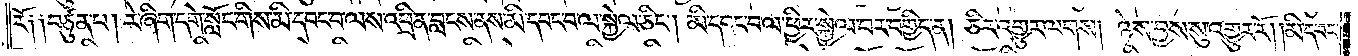རོ༑ ༑བཙུན་པ། རེ་ཞིག་དགེ་སློང་གིས་མི་དབང་བ་ལས་འཕྲིན་བླངས་ནས་མི་དབང་བ་ལ་སྐྱེལ་ཅིང༌། མི་དབང་བ་ལ་ཕྱིར་སྐྱེལ་བར་བགྱིད་ན། ཅིར་འགྱུར་ལགས། ཉེས་བྱས་སུ་འགྱུར་རོ། །མི་དབང་
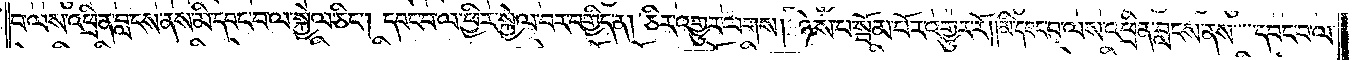བ་ལས་འཕྲིན་བླངས་ནས་མི་དབང་བ་ལ་སྐྱེལ་ཅིང༌། དབང་བ་ལ་ཕྱིར་སྐྱེལ་བར་བགྱིད་ན། ཅིར་འགྱུར་ལགས། ཉེས་པ་སྦོམ་པོར་འགྱུར་རོ། །མི་དབང་བ་ལས་འཕྲིན་བླངས་ནས་དབང་བ་ལ་
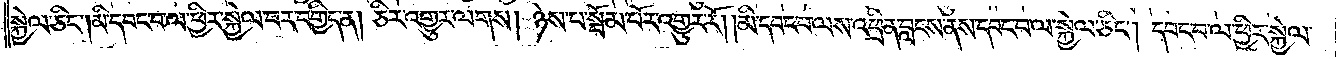སྐྱེལ་ཅིང༌། མི་དབང་བ་ལ་ཕྱིར་སྐྱེལ་བར་བགྱིད་ན། ཅིར་འགྱུར་ལགས། ཉེས་པ་སྦོམ་པོར་འགྱུར་རོ། །མི་དབང་བ་ལས་འཕྲིན་བླངས་ནས་དབང་བ་ལ་སྐྱེལ་ཅིང༌། དབང་བ་ལ་ཕྱིར་སྐྱེལ་
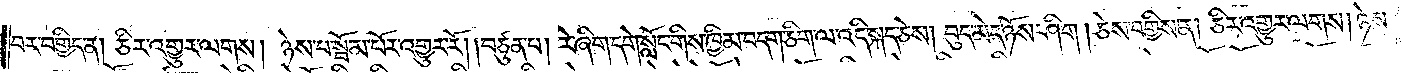བར་བགྱིད་ན། ཅིར་འགྱུར་ལགས། ཉེས་པ་སྦོམ་པོར་འགྱུར་རོ། །བཙུན་པ། རེ་ཞིག་དགེ་སློང་གིས་ཁྱིམ་བདག་ཅིག་ལ་འདི་སྐད་ཅེས། བུད་མེད་ཉོས་ཤིག །ཅེས་བགྱིས་ན། ཅིར་འགྱུར་ལགས། ཉེས་
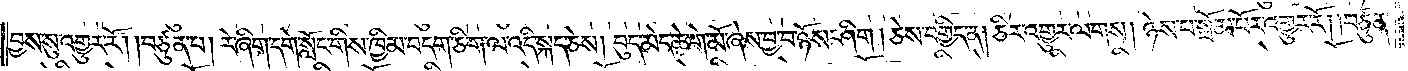བྱས་སུ་འགྱུར་རོ། །བཙུན་པ། རེ་ཞིག་དགེ་སློང་གིས་ཁྱིམ་བདག་ཅིག་ལ་འདི་སྐད་ཅེས། བུད་མེད་ཆེ་གེ་མོ་ཞེས་བྱ་བ་ཉོས་ཤིག །ཅེས་བགྱིད་ན། ཅིར་འགྱུར་ལགས། ཉེས་པ་སྦོམ་པོར་འགྱུར་རོ། །བཙུན་
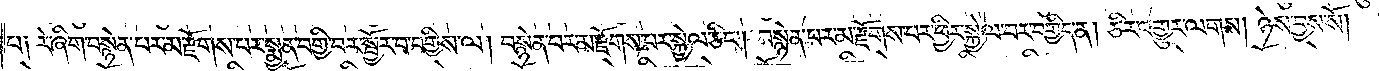པ༑ རེ་ཞིག་བསྙེན་པར་མ་རྫོགས་པར་སྨྱན་བགྱི་བར་སྦྱོར་བ་བགྱིས་ལ། བསྙེན་པར་མ་རྫོགས་པར་སྐྱེལ་ཅིང༌། བསྙེན་པར་མ་རྫོགས་པར་ཕྱིར་སྐྱེལ་བར་བགྱིད་ན། ཅིར་འགྱུར་ལགས། ཉེས་བྱས་སོ།
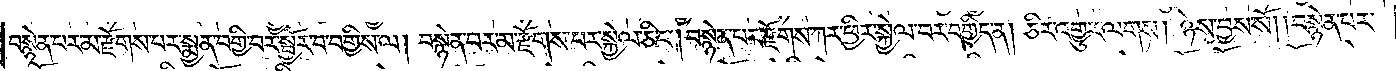བསྙེན་པར་མ་རྫོགས་པར་སྨྱན་བགྱི་བར་སྦྱོར་བ་བགྱིས་ལ། བསྙེན་པར་མ་རྫོགས་པར་སྐྱེལ་ཅིང༌། བསྙེན་པར་རྫོགས་ཀར་ཕྱིར་སྐྱེལ་བར་བགྱིད་ན། ཅིར་འགྱུར་ལགས། ཉེས་བྱས་སོ། །བསྙེན་པར་
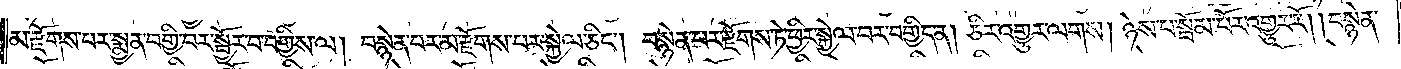མ་རྫོགས་པར་སྨྱན་བགྱི་བར་སྦྱོར་བ་བགྱིས་ལ། བསྙེན་པར་མ་རྫོགས་པར་སྐྱེལ་ཅིང༌། བསྙེན་པར་རྫོགས་ཏེ་ཕྱིར་སྐྱེལ་བར་བགྱིད་ན། ཅིར་འགྱུར་ལགས། ཉེས་པ་སྦོམ་པོར་འགྱུར་རོ། །བསྙེན་
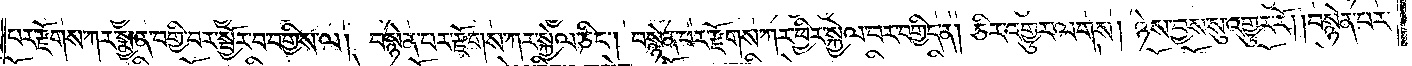པར་རྫོགས་ཀར་སྨྱན་བགྱི་བར་སྦྱོར་བ་བགྱིས་ལ། བསྙེན་པར་རྫོགས་ཀར་སྐྱེལ་ཅིང༌། བསྙེན་པར་རྫོགས་ཀར་ཕྱིར་སྐྱེལ་བར་བགྱིད་ན། ཅིར་འགྱུར་ལགས། ཉེས་བྱས་སུ་འགྱུར་རོ། །བསྙེན་པར་
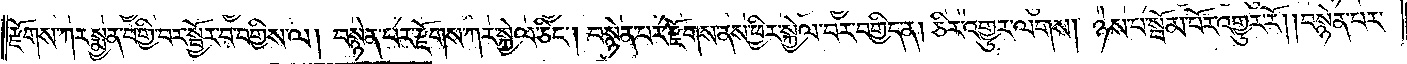རྫོགས་ཀར་སྨྱན་བགྱི་བར་སྦྱོར་བ་བགྱིས་ལ། བསྙེན་པར་རྫོགས་ཀར་སྐྱེལ་ཅིང༌། བསྙེན་པར་རྫོགས་ནས་ཕྱིར་སྐྱེལ་བར་བགྱིད་ན། ཅིར་འགྱུར་ལགས། ཉེས་པ་སྦོམ་པོར་འགྱུར་རོ། །བསྙེན་པར་
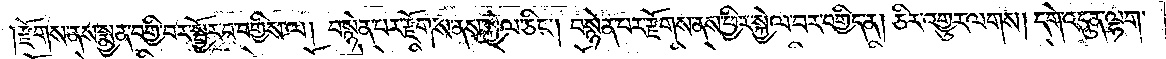།རྫོགས་ནས་སྨྱན་བགྱི་བར་སྦྱོར་བ་བགྱིས་ལ། བསྙེན་པར་རྫོགས་ནས་སྐྱེལ་ཅིང༌། བསྙེན་པར་རྫོགས་ནས་ཕྱིར་སྐྱེལ་བར་བགྱིད་ན། ཅིར་འགྱུར་ལགས། དགེ་འདུན་ལྷག་
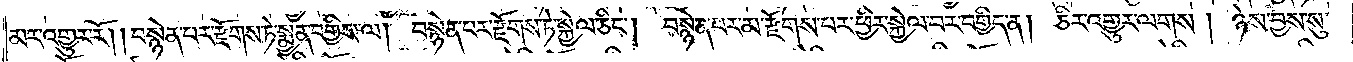མར་འགྱུར་རོ། །བསྙེན་པར་རྫོགས་ཏེ་སྨྱན་བགྱིས་ལ། བསྙེན་པར་རྫོགས་ཏེ་སྐྱེལ་ཅིང༌། བསྙེན་པར་མ་རྫོགས་པར་ཕྱིར་སྐྱེལ་བར་བགྱིད་ན། ཅིར་འགྱུར་ལགས། ཉེས་བྱས་སུ་
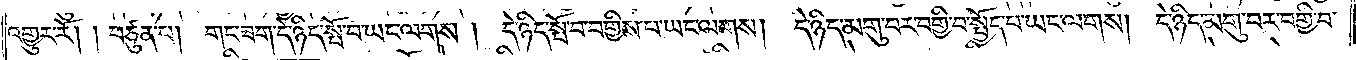འགྱུར་རོ། །བཙུན་པ། གང་ཟག་དེ་ཉིད་སྤོ་བ་ཡང་ལགས། དེ་ཉིད་སྤོ་བ་བགྱིས་པ་ཡང་ལགས། དེ་ཉིད་མགུ་བར་བགྱི་བ་སྤྱོད་པ་ཡང་ལགས། དེ་ཉིད་མགུ་བར་བགྱི་བ་
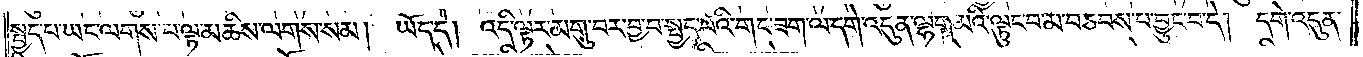སྤྱད་པ་ཡང་ལགས་པ་ལྟ་མཆིས་ལགས་སམ། ཡོད་དེ། འདི་ལྟར་མགུ་བར་བྱ་བ་སྤྱད་པའི་གང་ཟག་ལ་དགེ་འདུན་ལྷག་མའི་ལྟུང་བ་མ་བཅབས་པ་བྱུང་བ་དེ། དགེ་འདུན་
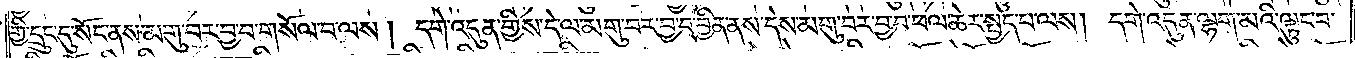གྱི་དྲུང་དུ་སོང་ནས་མགུ་བར་བྱ་བ་གསོལ་བ་ལས། དགེ་འདུན་གྱིས་དེ་ལ་མགུ་བར་བྱ་བ་བྱིན་ནས་དེས་མགུ་བར་བྱ་བ་ཕལ་ཆེར་སྤྱོད་པ་ལས། དགེ་འདུན་ལྷག་མའི་ལྟུང་བ་
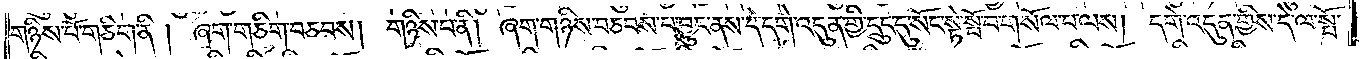གཉིས་པོ་གཅིག་ནི། ཞག་གཅིག་བཅབས། གཉིས་པ་ནི། ཞག་གཉིས་བཅབས་པ་བྱུང་ནས་དེ་དགེ་འདུན་གྱི་དྲུང་དུ་སོང་སྟེ་སྤོ་བ་གསོལ་པ་ལས། དགེ་འདུན་གྱིས་དེ་ལ་སྤོ་
